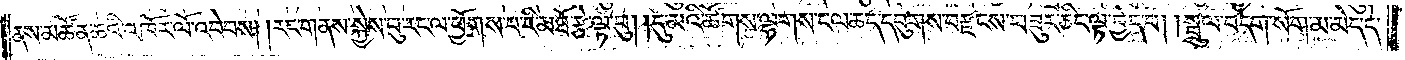ནས་མཚོན་ཆའི་འཁོར་ལོ་འབེབས། །རང་གནས་སྐྱེས་བུ་རང་ལ་ཕྱོགས་པ་རི་མཐོ་རྩེ་ལྟ་བུ། །དུ་མའི་ཚོགས་ལྷགས་ངལ་ཆད་དབུགས་བརྫངས་བཟུར་ཅིང་ལྟ་བྱེད་པ། །སྦྲུལ་བདག་སོག་མ་མེད་དེ་
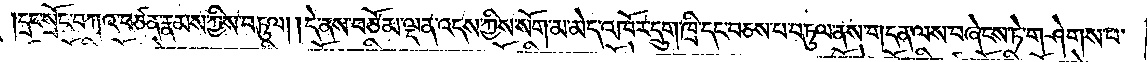།དྲང་སྲོང་བཀའ་བཙན་རྣམས་ཀྱིས་བཏུལ། །དེ་ནས་བཅོམ་ལྡན་འདས་ཀྱིས་སོག་མ་མེད་འཁོར་དྲུག་ཁྲི་དང་བཅས་པ་བཏུལ་ནས་གདན་ལས་བཞེངས་ཏེ་གཤེགས་པ་
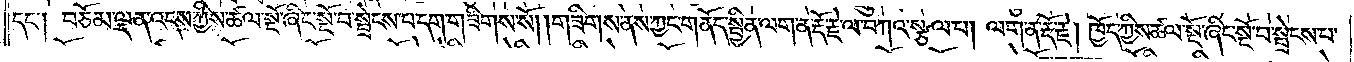དང༌། བཅོམ་ལྡན་འདས་ཀྱིས་ཚལ་སྔོ་ཞིང་སྔོ་བ་སྦྲེངས་པ་དག་གཟིགས་སོ། །གཟིགས་ནས་ཀྱང་གནོད་སྦྱིན་ལག་ན་རྡོ་རྗེ་ལ་བཀའ་སྩལ་པ། ལག་ན་རྡོ་རྗེ། ཁྱོད་ཀྱིས་ཚལ་སྔོ་ཞིང་སྔོ་བ་སྦྲེངས་པ་
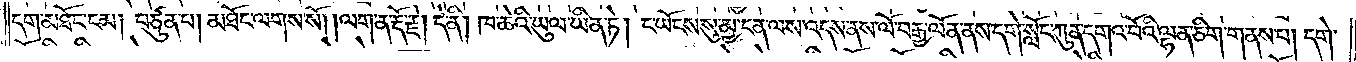དག་མཐོང་ངམ། བཙུན་པ། མཐོང་ལགས་སོ། །ལག་ན་རྡོ་རྗེ། དེ་ནི། ཁ་ཆེའི་ཡུལ་ཡིན་ཏེ། ང་ཡོངས་སུ་མྱ་ངན་ལས་འདས་ནས་ལོ་བརྒྱ་ལོན་ནས་དགེ་སློང་ཀུན་དགའ་བོའི་ལྷན་ཅིག་གནས་པ། དགེ་
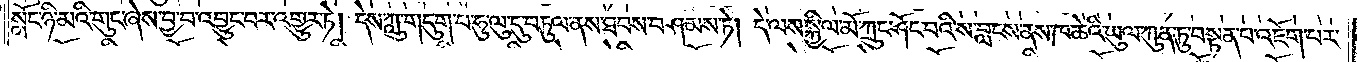སློང་ཉི་མའི་གུང་ཞེས་བྱ་བ་འབྱུང་བར་འགྱུར་ཏེ། དེས་ཀླུ་གདུག་པ་ཧུ་ལུ་དུ་བཏུལ་ནས་ཐབས་བཤམས་ཏེ། དེ་ལས་སྐྱིལ་མོ་ཀྲུང་ཤོང་བའི་ས་བླངས་ནས་ཁ་ཆེའི་ཡུལ་ཀུན་ཏུ་བསྟན་པ་འཇོག་པར་
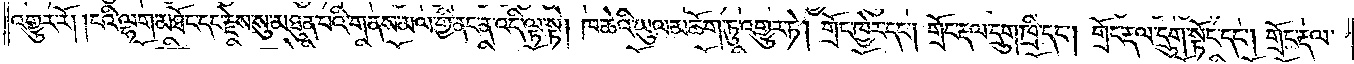འགྱུར་རོ། །ངའི་ལྷག་མཐོང་དང་རྗེས་སུ་མཐུན་པའི་གནས་མལ་གྱི་ནང་ན་འདི་ལྟ་སྟེ། ཁ་ཆེའི་ཡུལ་མཆོག་ཏུ་འགྱུར་ཏེ། གྲོང་ཁྱེར་དང༌། གྲོང་རྡལ་དྲུག་ཁྲི་དང༌། གྲོང་རྡལ་དྲུག་སྟོང་དང༌། གྲོང་རྡལ་
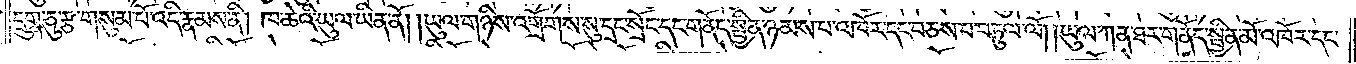དྲུག་ཅུ་རྩ་གསུམ་པོ་འདི་རྣམས་ནི། ཁ་ཆེའི་ཡུལ་ཡིན་ནོ། །ཡུལ་གཉིས་འགྲོགས་སུ་དྲང་སྲོང་དང་གནོད་སྦྱིན་ཉམས་པ་འཁོར་དང་བཅས་པ་བཏུལ་ལོ། །ཡུལ་ཀན་ཐར་གནོད་སྦྱིན་མོ་འཁོར་དང་
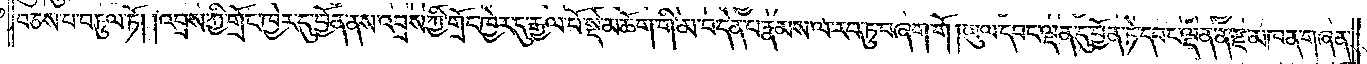བཅས་པ་བཏུལ་ཏོ། །འབྲས་ཀྱི་གྲོང་ཁྱེར་དུ་བྱོན་ནས་འབྲས་ཀྱི་གྲོང་ཁྱེར་དུ་རྒྱལ་པོ་སྡེ་མཆོག་གི་མ་བདེན་པ་རྣམས་ལ་རབ་ཏུ་བཞག་གོ །ཡུལ་དབང་ལྡན་དུ་བྱོན་ཏེ་དབང་ལྡན་ན་རྫ་མཁན་གཞན་
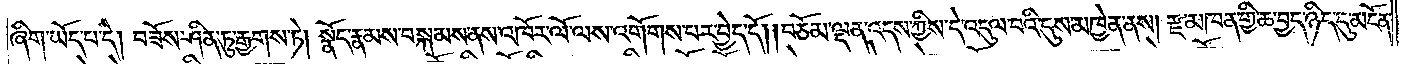ཞིག་ཡོད་པ་དེ། བཟོས་ཤིན་ཏུ་རྒྱགས་ཏེ། སྣོད་རྣམས་བསྐམས་ནས་འཁོར་ལོ་ལས་འགོགས་པར་བྱེད་དོ། །བཅོམ་ལྡན་འདས་ཀྱིས་དེ་འདུལ་བའི་དུས་མཁྱེན་ནས། རྫ་མཁན་གྱི་ཆ་བྱད་ཉིད་དུ་མངོན་
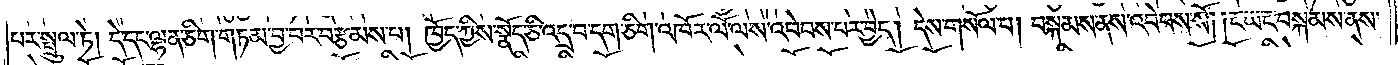པར་སྤྲུལ་ཏེ། དེ་དང་ལྷན་ཅིག་གཏམ་བྱ་བར་བརྩམས་པ། ཁྱོད་ཀྱིས་སྣོད་ཅི་འདྲ་བ་དག་ཅིག་འཁོར་ལོ་ལས་འབེབས་པར་བྱེད། དེས་གསོལ་པ། བསྐམས་ནས་འབེབས་སོ། །ང་ཡང་བསྐམས་ནས་
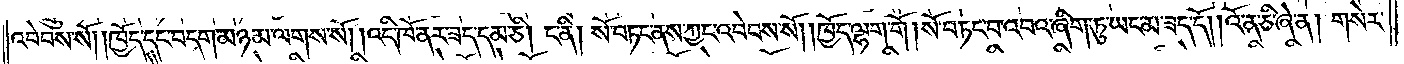འབེབས་སོ། །ཁྱོད་དང་བདག་མཉམ་ལགས་སོ། །འདི་ཁོ་ནར་ཟད་དམ་ཅི། ང་ནི། སོ་བཏང་ནས་ཀྱང་འབེབས་སོ། །ཁྱོད་ལྷག་གོ །སོ་བཏང་བ་འབའ་ཞིག་ཏུ་ཡང་མ་ཟད་དོ། །འོ་ན་ཅི་ཞེ་ན། གསེར་
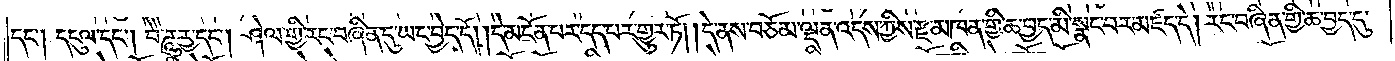དང༌། དངུལ་དང༌། བཻཌཱུརྱ་དང༌། ཤེལ་གྱི་རང་བཞིན་དུ་ཡང་བྱེད་དོ། །དེ་མངོན་པར་དད་པར་གྱུར་ཏོ། །དེ་ནས་བཅོམ་ལྡན་འདས་ཀྱིས་རྫ་མཁན་གྱི་ཆ་བྱད་མི་སྣང་བར་མཛད་དེ། རང་བཞིན་གྱི་ཆ་བྱད་དུ་
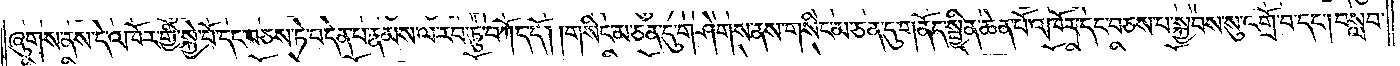ཞུགས་ནས་དེ་འཁོར་གྱི་སྐྱེ་བོ་དང་བཅས་ཏེ་བདེན་པ་རྣམས་ལ་རབ་ཏུ་བཀོད་དོ། །གསིང་མ་ཅན་དུ་གཤེགས་ནས་གསིང་མ་ཅན་དུ་གནོད་སྦྱིན་ཆེན་པོ་འཁོར་དང་བཅས་པ་སྐྱབས་སུ་འགྲོ་བ་དང༌། བསླབ་
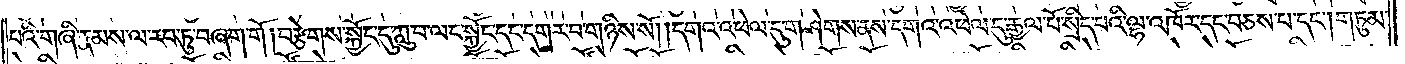པའི་གཞི་རྣམས་ལ་རབ་ཏུ་བཞག་གོ །བརྩེགས་སྐྱོང་དུ་ཀླུ་བ་ལང་སྐྱོང་དང་དགར་བ་གཉིས་སོ། །དགའ་འཕེལ་དུ་གཤེགས་ནས་དགའ་འཕེལ་དུ་རྒྱལ་པོ་སྲིད་པའི་ལྷ་འཁོར་དང་བཅས་པ་དང༌། གཏུམ་
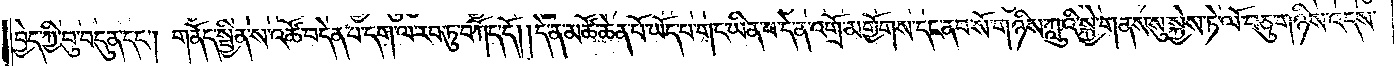བྱེད་ཀྱི་བུ་བདུན་དང༌། གནོད་སྦྱིན་ས་འཚོ་བདེན་པ་དག་ལ་རབ་ཏུ་བཀོད་དོ། །དེ་ན་མཚོ་ཆེན་པོ་ཡོད་པ་གང་ཡིན་པ་དེ་ན་འགྲོ་མགྱོགས་དང་ནབ་སོ་གཉིས་ཀླུའི་སྐྱེ་གནས་སུ་སྐྱེས་ཏེ་ལོ་བཅུ་གཉིས་འདས་
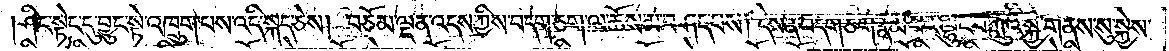ཤིང་སྟེང་དུ་བྱུང་སྟེ་འཁྲུག་པས་འདི་སྐད་ཅེས། བཅོམ་ལྡན་འདས་ཀྱིས་བདག་ཅག་ལ་ཆོས་མ་བཤད་པས། དེས་ན་བདག་ཅག་རྣམ་པར་ལྷུང་བ་ཀླུའི་སྐྱེ་གནས་སུ་སྐྱེས་
